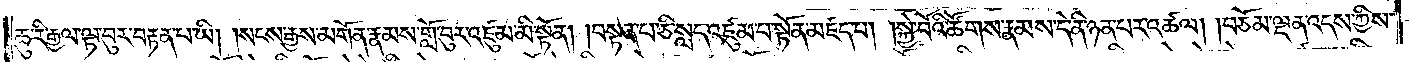ཆུ་རི་རྒྱལ་ལྟ་བུར་བརྟན་པ་ཡི། །སངས་རྒྱས་མགོན་རྣམས་གློ་བུར་འཛུམ་མི་སྟོན། །བསྟན་པ་ཅི་སླད་འཛུམ་པ་སྟོན་མཛད་པ། །སྐྱེ་བོའི་ཚོགས་རྣམས་དེ་ནི་ཉན་པར་འཚལ། །བཅོམ་ལྡན་འདས་ཀྱིས་
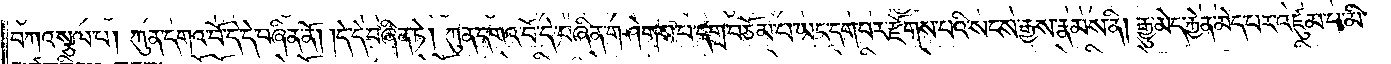བཀའ་སྩལ་པ། ཀུན་དགའ་བོ་དེ་དེ་བཞིན་ནོ། །དེ་དེ་བཞིན་ཏེ། ཀུན་དགའ་བོ་དེ་བཞིན་གཤེགས་པ་དགྲ་བཅོམ་པ་ཡང་དག་པར་རྫོགས་པའི་སངས་རྒྱས་རྣམས་ནི། རྒྱུ་མེད་རྐྱེན་མེད་པར་འཛུམ་པ་མི་
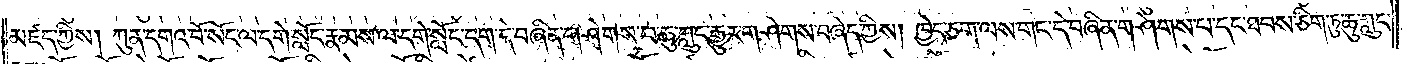མཛད་ཀྱིས། ཀུན་དགའ་བོ་སོང་ལ་དགེ་སློང་རྣམས་ལ་དགེ་སློང་དག་དེ་བཞིན་གཤེགས་པ་ཆུ་ཀླུང་རྒྱུར་གཤེགས་བཞེད་ཀྱིས། ཁྱེད་ཅག་ལས་གང་དེ་བཞིན་གཤེགས་པ་དང་ཐབས་ཅིག་ཏུ་ཆུ་ཀླུང་
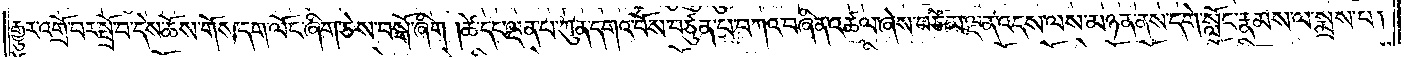རྒྱུར་འགྲོ་བར་སྤྲོ་བ་དེས་ཆོས་གོས་དག་ལོང་ཞིག་ཅེས་བསྒོ་ཞིག །ཚེ་དང་ལྡན་པ་ཀུན་དགའ་བོས་བཙུན་པ་བཀའ་བཞིན་འཚལ་ཞེས་བཅོམ་ལྡན་འདས་ལས་མཉན་ནས་དགེ་སློང་རྣམས་ལ་སྨྲས་པ།
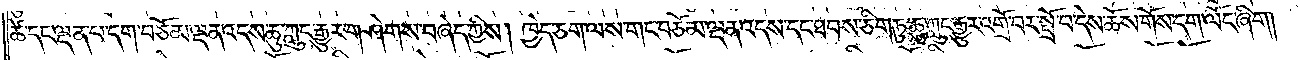ཚེ་དང་ལྡན་པ་དག་བཅོམ་ལྡན་འདས་ཆུ་ཀླུང་རྒྱུར་གཤེགས་བཞེད་ཀྱིས། ཁྱེད་ཅག་ལས་གང་བཅོམ་ལྡན་འདས་དང་ཐབས་ཅིག་ཏུ་ཆུ་ཀླུང་རྒྱུར་འགྲོ་བར་སྤྲོ་བ་དེས་ཆོས་གོས་དག་ལོང་ཞིག།
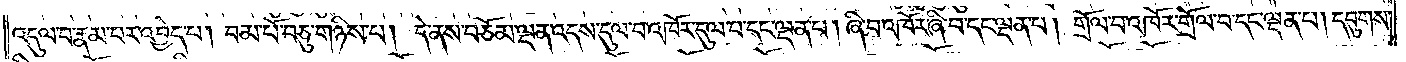འདུལ་བ་རྣམ་པར་འབྱེད་པ། བམ་པོ་བཅུ་གཉིས་པ། དེ་ནས་བཅོམ་ལྡན་འདས་དུལ་བ་འཁོར་དུལ་བ་དང་ལྡན་པ། ཞི་བ་འཁོར་ཞི་བ་དང་ལྡན་པ། གྲོལ་བ་འཁོར་གྲོལ་བ་དང་ལྡན་པ། དབུགས་
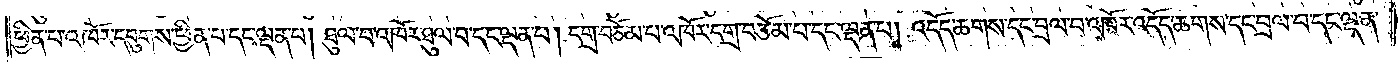ཕྱིན་པ་འཁོར་དབུགས་ཕྱིན་པ་དང་ལྡན་པ། ཐུལ་བ་འཁོར་ཐུལ་བ་དང་ལྡན་པ། དགྲ་བཅོམ་པ་འཁོར་དགྲ་བཅོམ་པ་དང་ལྡན་པ། འདོད་ཆགས་དང་བྲལ་བ་འཁོར་འདོད་ཆགས་དང་བྲལ་བ་དང་ལྡན་
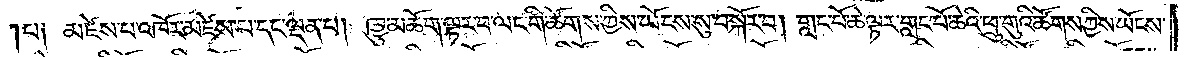པ༑ མཛེས་པ་འཁོར་མཛེས་པ་དང་ལྡན་པ། ཁྱུ་མཆོག་ལྟར་བ་ལང་གི་ཚོགས་ཀྱིས་ཡོངས་སུ་བསྐོར་བ། གླང་པོ་ཆེ་ལྟར་གླང་པོ་ཆེའི་ཕྲུ་གུའི་ཚོགས་ཀྱིས་ཡོངས་
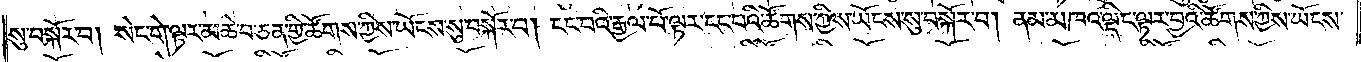སུ་བསྐོར་བ། སེང་གེ་ལྟར་མཆེ་བ་ཅན་གྱི་ཚོགས་ཀྱིས་ཡོངས་སུ་བསྐོར་བ། ངང་བའི་རྒྱལ་པོ་ལྟར་ངང་པའི་ཚོགས་ཀྱིས་ཡོངས་སུ་བསྐོར་བ། ནམ་མཁའ་ལྡིང་ལྟར་བྱའི་ཚོགས་ཀྱིས་ཡོངས་
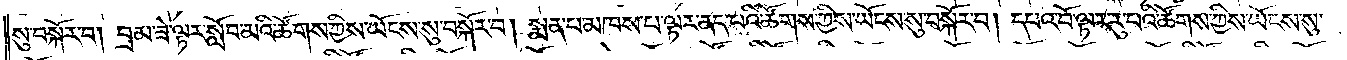སུ་བསྐོར་བ། བྲམ་ཟེ་ལྟར་སློབ་མའི་ཚོགས་ཀྱིས་ཡོངས་སུ་བསྐོར་བ། སྨན་པ་མཁས་པ་ལྟར་ནད་པའི་ཚོགས་ཀྱིས་ཡོངས་སུ་བསྐོར་བ། དཔའ་བོ་ལྟར་རུ་བའི་ཚོགས་ཀྱིས་ཡོངས་སུ་
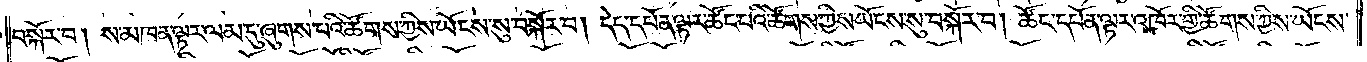བསྐོར་བ། ས་མཁན་ལྟར་ལམ་དུ་ཞུགས་པའི་ཚོགས་ཀྱིས་ཡོངས་སུ་བསྐོར་བ། དེད་དཔོན་ལྟར་ཚོང་པའི་ཚོགས་ཀྱིས་ཡོངས་སུ་བསྐོར་བ། ཚོང་དཔོན་ལྟར་འཁོར་གྱི་ཚོགས་ཀྱིས་ཡོངས་
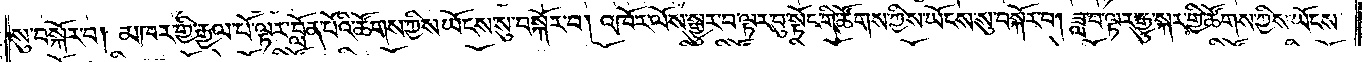སུ་བསྐོར་བ། མཁར་གྱི་རྒྱལ་པོ་ལྟར་བློན་པོའི་ཚོགས་ཀྱིས་ཡོངས་སུ་བསྐོར་བ། འཁོར་ལོས་སྒྱུར་བ་ལྟར་བུ་སྟོང་གི་ཚོགས་ཀྱིས་ཡོངས་སུ་བསྐོར་བ། ཟླ་བ་ལྟར་རྒྱུ་སྐར་གྱི་ཚོགས་ཀྱིས་ཡོངས་
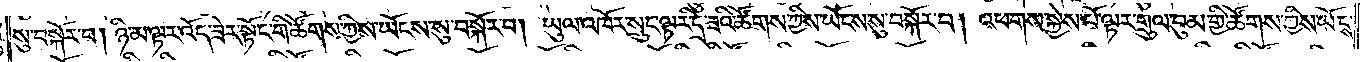སུ་བསྐོར་བ། ཉི་མ་ལྟར་འོད་ཟེར་སྟོང་གི་ཚོགས་ཀྱིས་ཡོངས་སུ་བསྐོར་བ། ཡུལ་འཁོར་སྲུང་ལྟར་དྲི་ཟའི་ཚོགས་ཀྱིས་ཡོངས་སུ་བསྐོར་བ། འཕགས་སྐྱེས་པོ་ལྟར་གྲུལ་བུམ་གྱི་ཚོགས་ཀྱིས་ཡོངས་
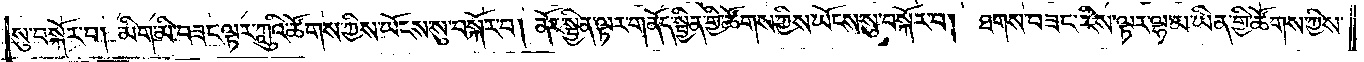སུ་བསྐོར་བ། མིག་མི་བཟང་ལྟར་ཀླུའི་ཚོགས་ཀྱིས་ཡོངས་སུ་བསྐོར་བ། ནོར་སྦྱིན་ལྟར་གནོད་སྦྱིན་གྱི་ཚོགས་ཀྱིས་ཡོངས་སུ་བསྐོར་བ། ཐགས་བཟང་རིས་ལྟར་ལྷ་མ་ཡིན་གྱི་ཚོགས་ཀྱིས་
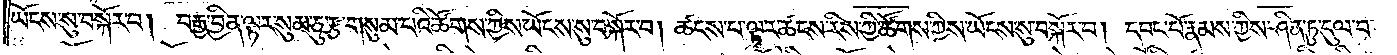ཡོངས་སུ་བསྐོར་བ། བརྒྱ་བྱིན་ལྟར་སུམ་ཅུ་རྩ་གསུམ་པའི་ཚོགས་ཀྱིས་ཡོངས་སུ་བསྐོར་བ། ཚངས་པ་ལྟར་ཚངས་རིས་ཀྱི་ཚོགས་ཀྱིས་ཡོངས་སུ་བསྐོར་བ། དབང་པོ་རྣམས་ཀྱིས་ཤིན་ཏུ་དུལ་བ་
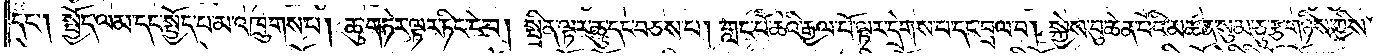དང༌། སྤྱོད་ལམ་དང་སྤྱོད་པ་མ་འཁྲུགས་པ། ཆུ་གཏེར་ལྟར་ཏིང་ངེ་བ། སྤྲིན་ལྟར་ཆུ་དང་བཅས་པ། གླང་པོ་ཆེའི་རྒྱལ་པོ་ལྟར་དྲེགས་པ་དང་བྲལ་བ། སྐྱེས་བུ་ཆེན་པོའི་མཚན་སུམ་ཅུ་རྩ་གཉིས་ཀྱིས་
